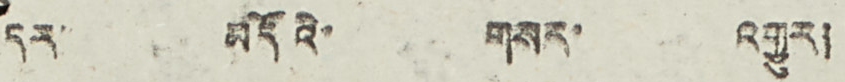དར་ མདོའི་ གསར་ འགྱུར།
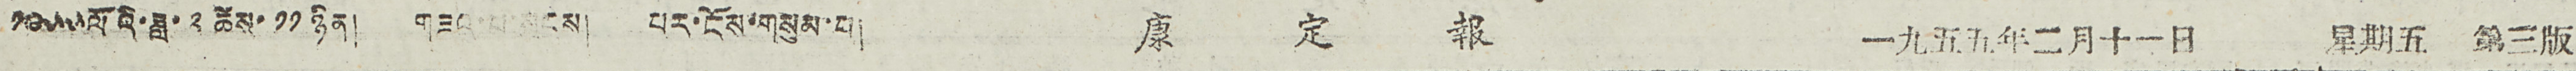༡༩༥༥ལོའི་ཟླ་ ༢ ཚེས་ ༡༡ ཉིན། གཟའ་པ་སངས། པར་ངོས་གསུམ་པ། 康 定 報 一九五五年二月十一日 星期五 第三版
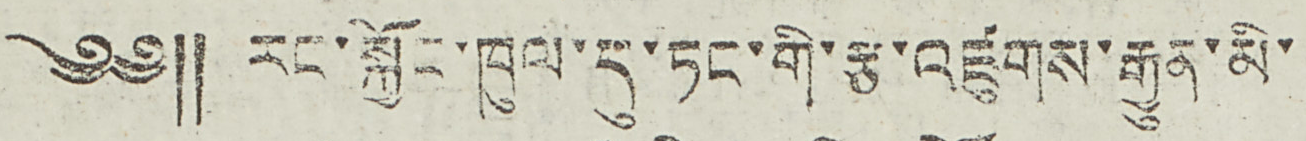༄༅༎ རང་སྐྱོང་ཁུལ་དུ་རང་གི་རྩ་འཛུགས་རྒྱུན་མི་
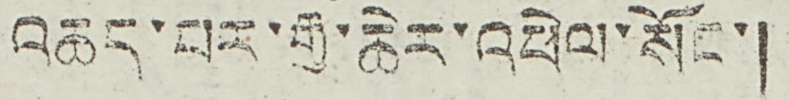འཆད་པར་རྒྱ་ཆེར་འཕེལ་སོང་།
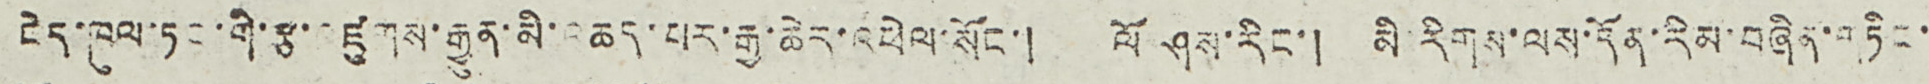ངེད་ཁུལ་ཏང་གི་རྩ་འཛུགས་རྒྱུན་མི་འཆད་པར་རྒྱ་ཆེར་འཕེལ་སོང་། ལོ ཤས་རིང་། མི་རིགས་ལས་དོན་རིམ་བཞིན་གཏིང་
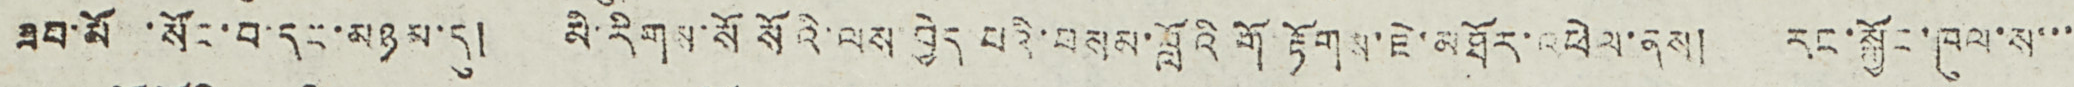ཟབ་མོ ་སོང་བ་དང་མཉམ་དུ། མི་རིགས་སོ སོའི་ལས་བྱེད པའི་བསམ་སློའི གོ རྟོགས་ཇེ་མཐོར་འཕེལ་ནས། རང་སྐྱོང་ཁུལ་ས་་་
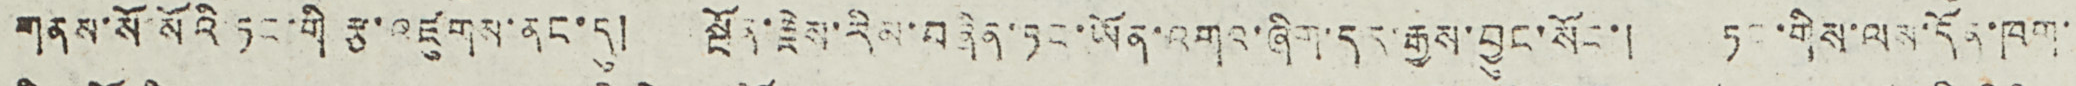གནས་སོ་སོའི་ཏང་གི་རྩ་འཛུགས་ནས་དུ། སྔོན་རྗེས་རིམ་བཞིན་ཏང་ཡོན་འགའ་ཞིག་དར་རྒྱས་བྱུང་སོང་། ཏང་གིས་ལས་དོན་ཁག་
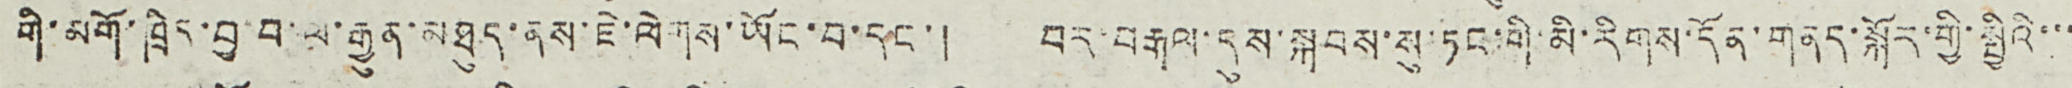གི་མགོ་ཁྲིད་བྱ་བ་ལ་རྒྱུན་མཐུད་ནས་ཇེ་ལེགས་ཡོང་བ་དང་། བར་བརྒལ་དུས་སྐབས་སུ་ཏང་གི་མི་རིགས་དོན་གནད་སྐོར་གྱི་སྤྱིའི་་་
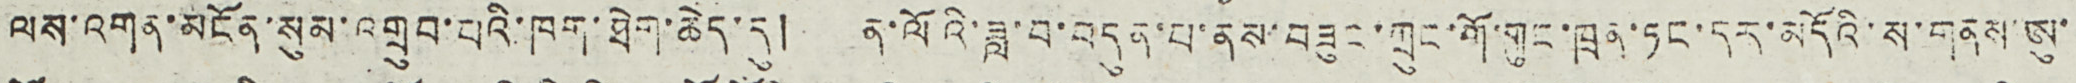ལས་འགན་མངོན་སུམ་འགྲུབ་པའི་ཁག་ཐེག་ཆེད་དུ། ན་ལོའི་ཟླ་བ་བདུན་པ་ནས་བཟུང་ཀྲུང་གོ་གུང་ཁྲན་ཏང་དར་མདོའི་ས་གནས་ཨུ་
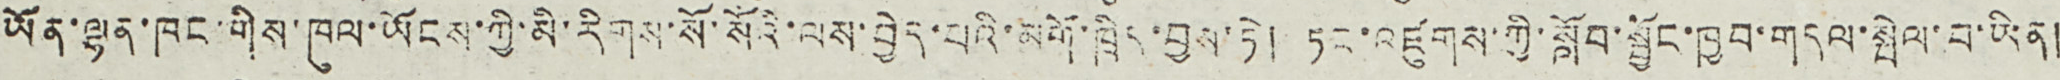ཡོན་ལྷན་ཁང་གིས་ཁུལ་ཡོངས་ཀྱི་མི་རིགས་སོ་སོའི་ལས་བྱེད་པའི་མགོ་ཁྲིད་བྱས་ཏེ། ཏང་འཛུགས་ཀྱི་སློབ་སྦྱོང་ཁྱབ་གདལ་སྤེལ་བ་ཡིན།
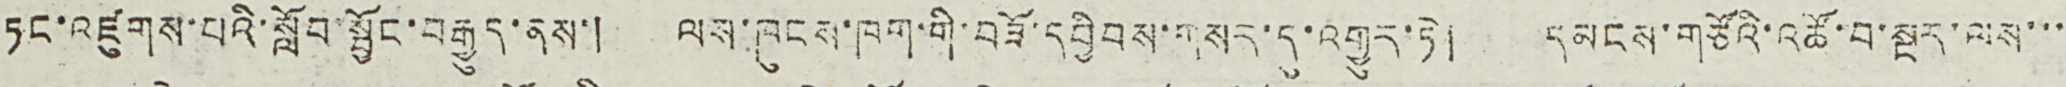ཏང་འཛུགས་པའི་སློབ་སྦྱོང་བརྒྱུད་ནས་། ལས་ཁུངས་ཁག་གི་བཟོ་དབྱིབས་གསར་དུ་འགྱུར་ཏེ། དམངས་གཙོའི་འཚོ་བ་སྔར་ལས་་་
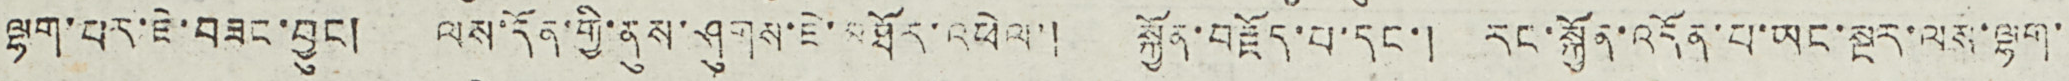ལྷག་པར་ཇེ་བཟང་བྱུང། ལས་དོན་གྱི་ནུས་ཤུགས་ཇེ་མཐོར་འཕེལ་། སྐྱོན་བརྗོད་པ་དང་། རང་སྐྱོན་འདོན་པ་ཡང་སྔར་ལས་ལྷག་
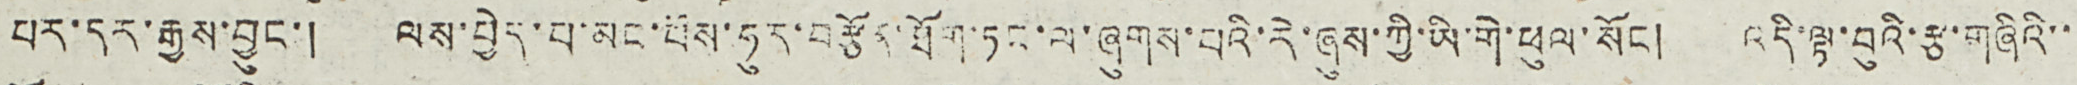པར་དར་རྒྱས་བྱུང་། ལས་བྱེད་པ་མང་པོས་ཧུར་བརྩོན་ཐོག་ཏང་ལ་ཞུགས་པའི་རེ་ཞུས་ཀྱི་ཡི་གེ་ཕུལ་སོང། འདི་ལྟ་བུའི་རྩ་གཞིའི་་
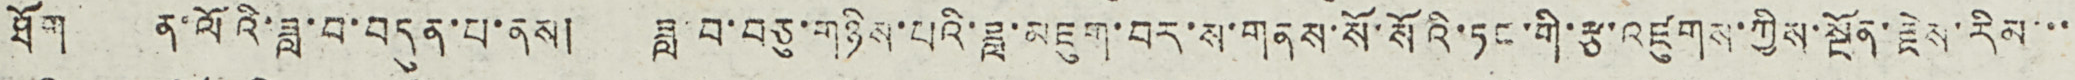ཐོག ན་ལོའི་ཟླ་བ་བདུན་པ་ནས། ཟླ་བ་བཅུ་གཉིས་པའི་ཟླ་མཇུག་བར་ས་གནས་སོ་སོའི་ཏང་གི་རྩ་འཛུགས་ཀྱིས་སྔོན་རྗེས་རིམ་་་
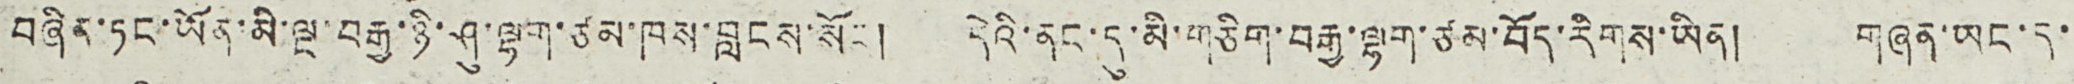བཞིར་རང་ཡོན་མི་ལྔ་བརྒྱ་ཉི་ཤུ་ལྷག་ཙམ་ཁས་བླངས་སོང ། དེའི་ནང་དུ་མི་གཅིག་བརྒྱ་ལྷག་ཙམ་བོད་རིགས་ཡིན། གཞན་ཡང་ད་
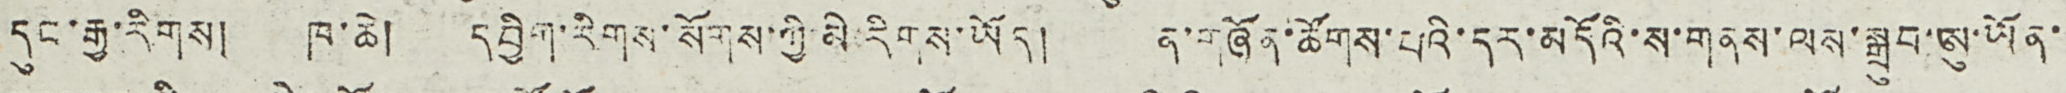དུང་རྒྱ་རིགས། ཁ་ཆེ། དབྱིག་རིགས་སོགས་ཀྱི་མི་རིགས་ཡོད། ན་གཞོན་ཚོགས་པའི་དར་མདོའི་ས་གནས་ལས་སྒྲུབ་ཨུ་ཡོན་
